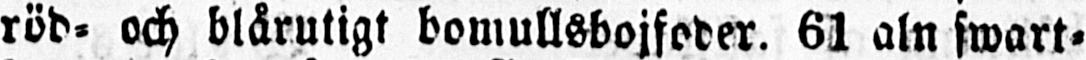röd- och blårutigt bomullsbojfoder. 61 aln swart-
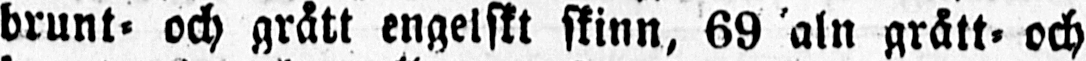brunt- och grått engelskt skinn, 69 aln grått- och
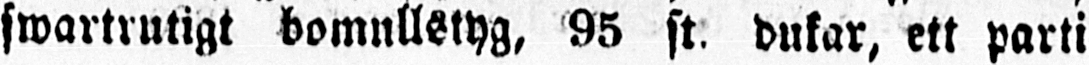swartrutigt bomullstyg, 95 st. dukar, ett parti
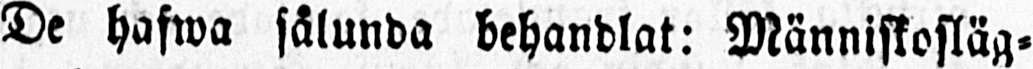De hafwa sålunda behandlat: Människosläg-
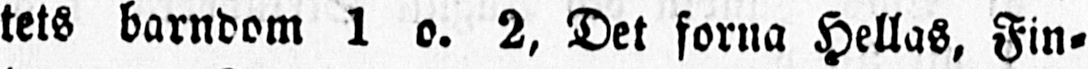tets barndom 1 o. 2, Det forna Hellas, Fin-
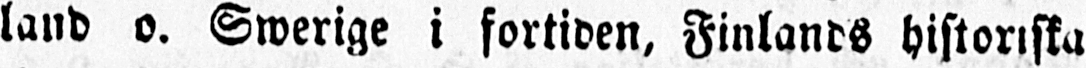land o. Swerige i fortiden, Finlands historiska
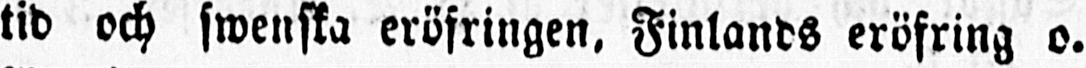tid och swenska eröfringen, Finlands eröfring o.
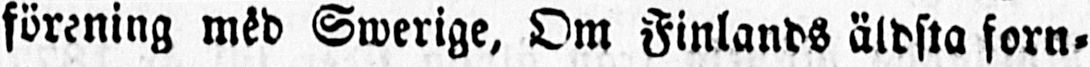förening med Swerige, Om Finlands äldsta forn-
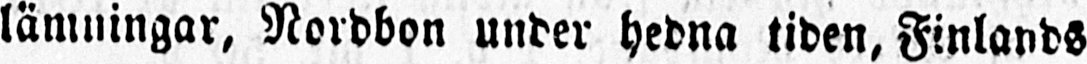lämningar, Nordbon under hedna tiden, Finlands
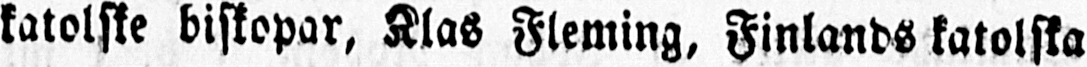katolske biskopar, Klas Fleming, Finlands katolska
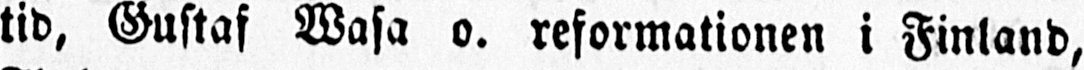tid, Gustaf Wasa o. reformationen i Finland,
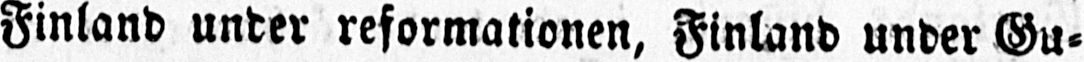Finland under reformationen, Finland under Gu-
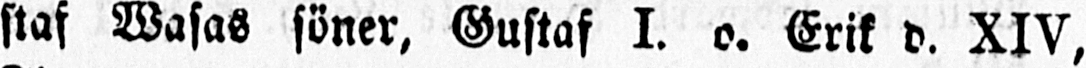staf Wasas söner, Gustaf I. o. Erik d. XIV,
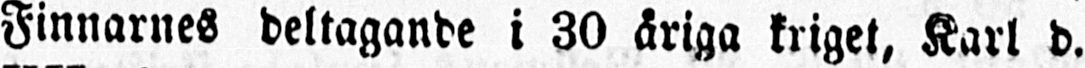Finnarnes deltagande i 30 åriga kriget, Karl d.
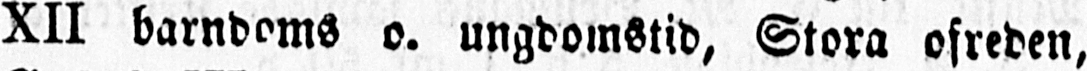XII barndoms o. ungdomstid, Stora ofreden,
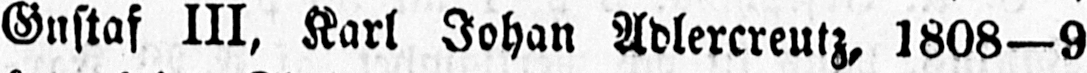Gustaf III, Karl Johan Adlercreutz, 1808—9
